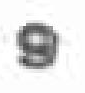9
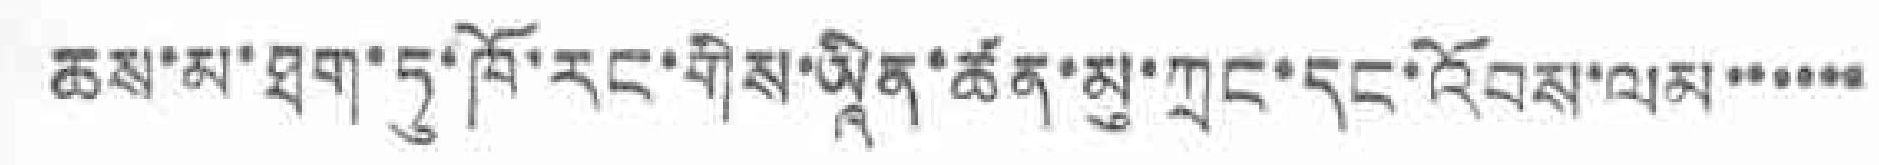ཆས་མ་ཐག་ཏུ་ཁོ་རང་གིས་ཡཱིན་ཚན་མུ་ཀྲང་དང་འོབས་ལམ་་་་་་་
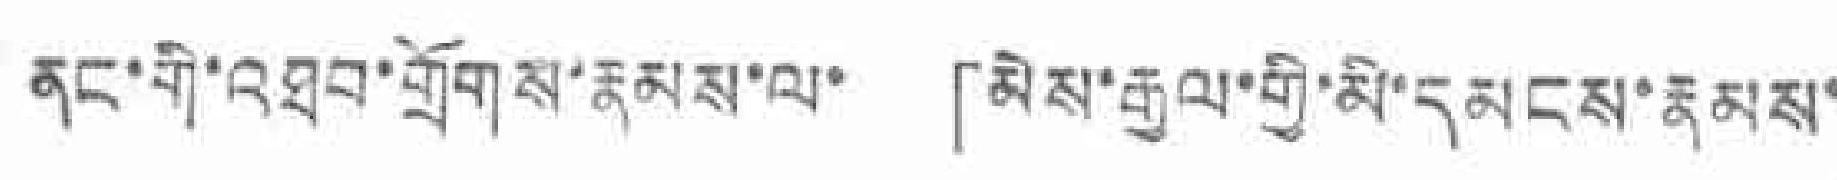ནང་གི་འཐབ་གྲོགས་རྣམས་ལ་ 「མེས་རྒྱལ་གྱི་མི་དམངས་རྣམས་
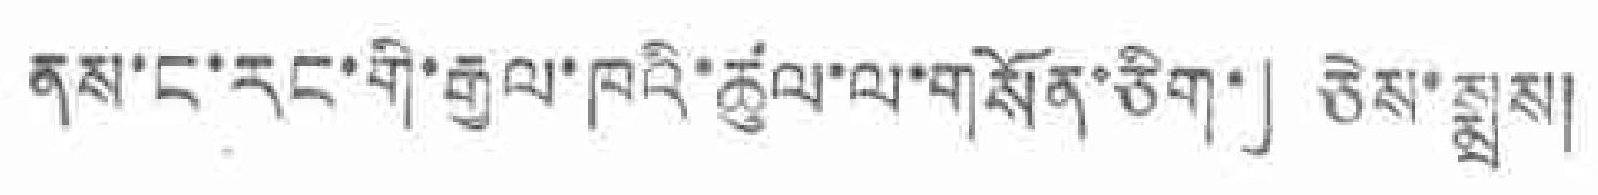ནས་ང་རང་གི་རྒྱལ་ཁའི་ཚུལ་ལ་གསོན་ཅིག་」ཅེས་སྨྲས།
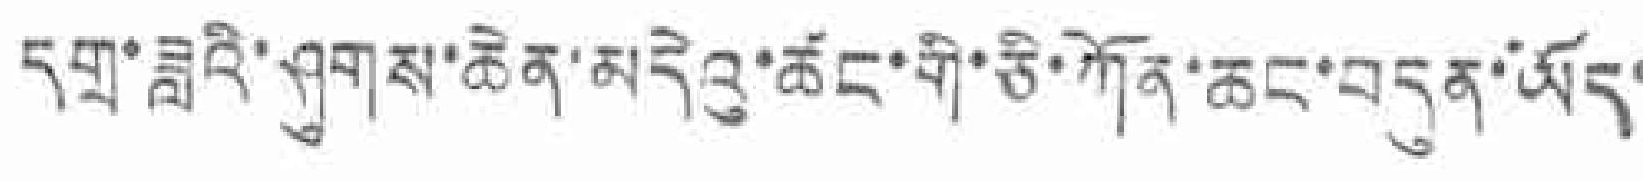དགྲ་ཟླའི་ཤུགས་ཆེན་མདེའུ་ཚང་གི་ཅི་ཀོན་ཆང་བདུན་ཡོད་
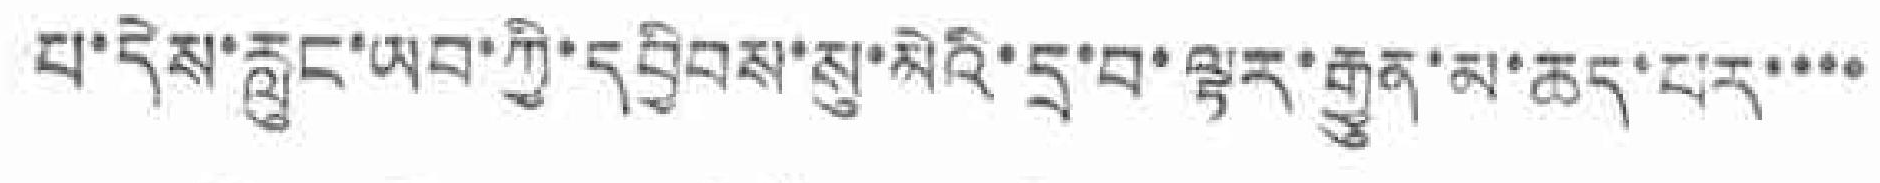པ་དེས་རླུང་ཡབ་ཀྱི་དབྱིབས་སུ་མེའི་དྲ་བ་ལྟར་རྒྱུན་མ་ཆད་པར་་་་
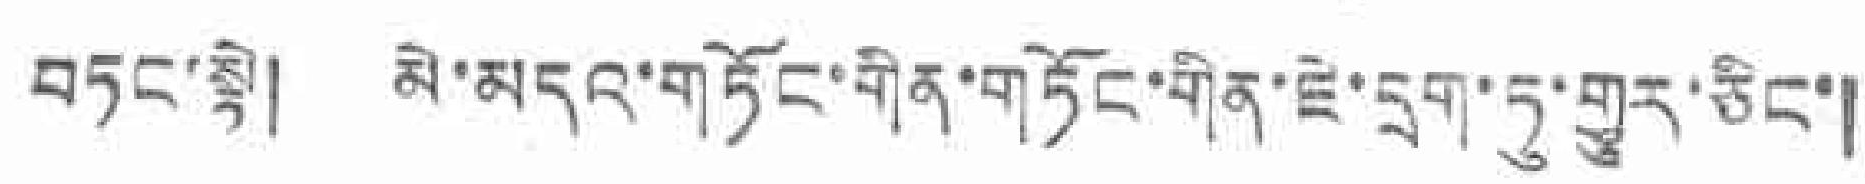བཏང་སྟེ། མེ་མདའ་གཏོང་གིན་གཏོང་གིན་ཇེ་དྲག་ཏུ་གྱུར་ཅིང་།
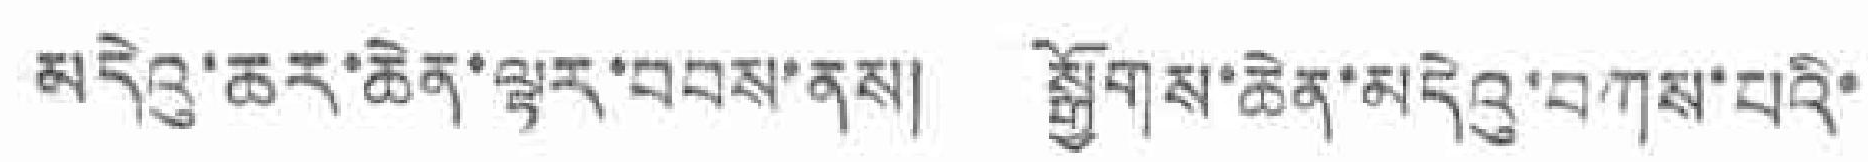མདེའུ་ཆར་ཆེན་ལྟར་བབས་ནས། སྒྱོགས་ཆེན་མདེའུ་བཀས་པའི་
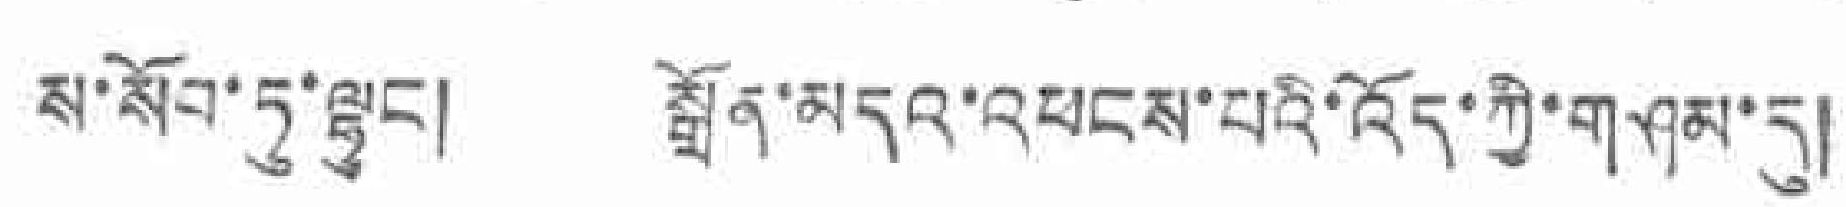ས་སོབ་ཏུ་ལྷུང་། སྒྲོན་མདའ་འཕངས་པའི་འོད་ཀྱི་གཤམ་དུ།
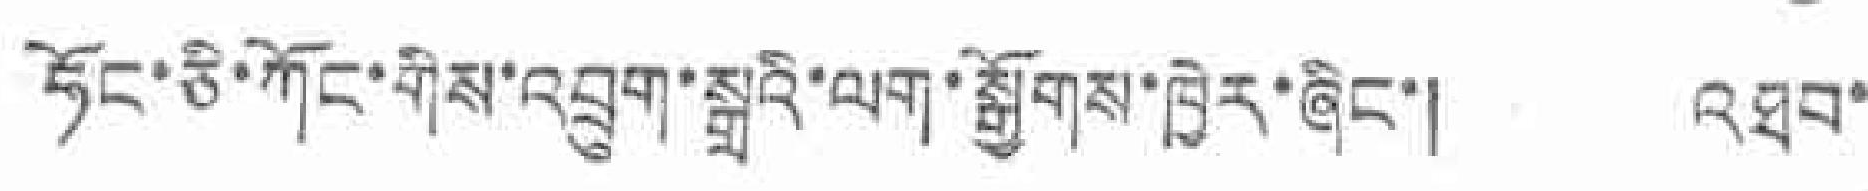ཧོང་ཅི་ཀོང་གིས་འབྲུག་སྒྲའི་ལག་སྒྱོགས་ཁྱེར་ཞིང་། འཐབ་
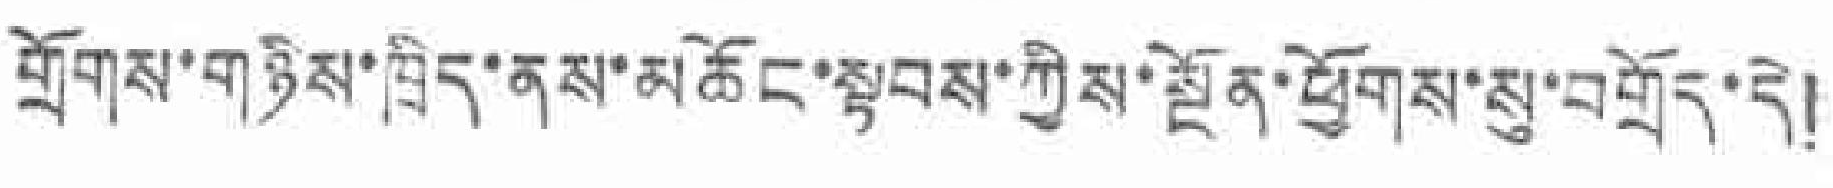གྲོགས་གཉིས་ཁྲིད་ནས་མཆོང་སྟབས་ཀྱིས་སྔོན་ཕྱོགས་སུ་བགྲོད་དེ།
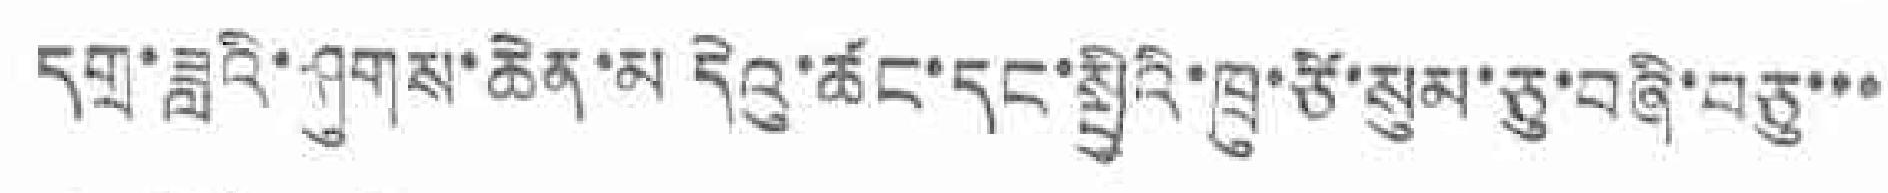དགྲ་ཟླའི་ཤུགས་ཆེན་མ་དེའུ་ཆང་དང་སྤྱིའི་ཁྲུ་ཙེ་སུམ་ཅུ་བཞི་བཅུ་་་་
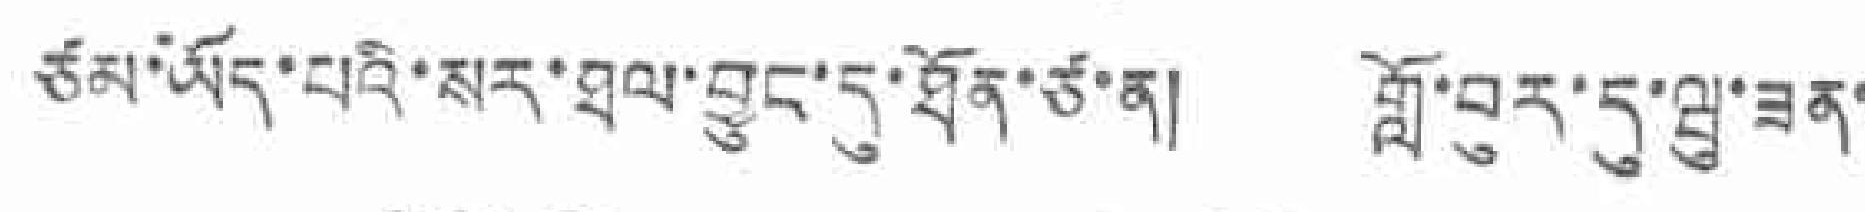ཙམ་ཡོད་པའི་སར་ཐལ་བྱུང་དུ་ཐོན་ཙ་ན། གློ་བུར་དུ་ཝུ་ཟན་
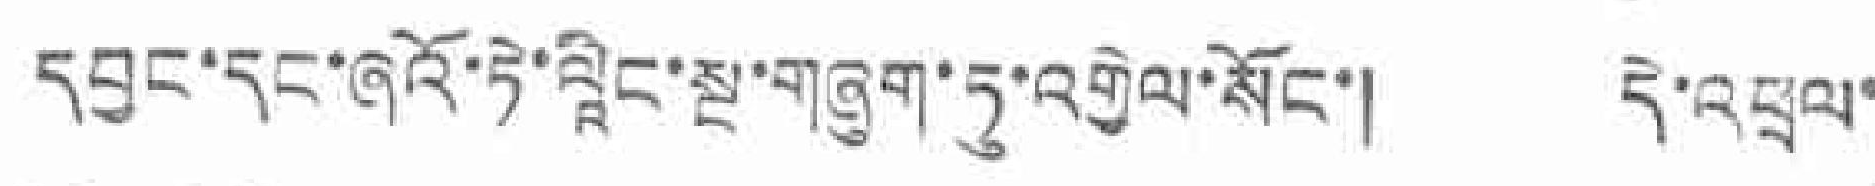དབྱང་དང་ཞའོ་ཏེ་ལཱིང་སྔ་གཞུག་ཏུ་འགྱེལ་སོང་། དེ་འཕྲལ་
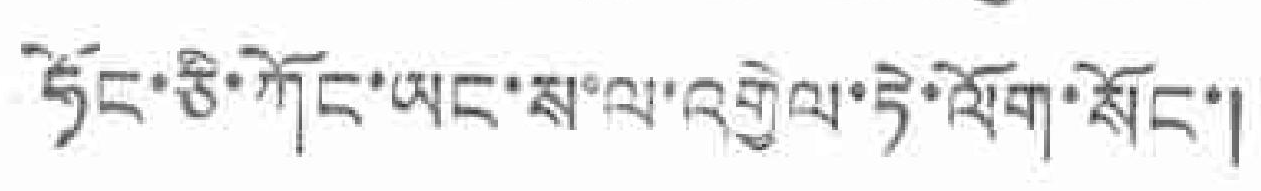ཧོང་ཅི་ཀོང་ཡང་ས་ལ་འགྱེལ་ཏེ་ལོག་སོང་།
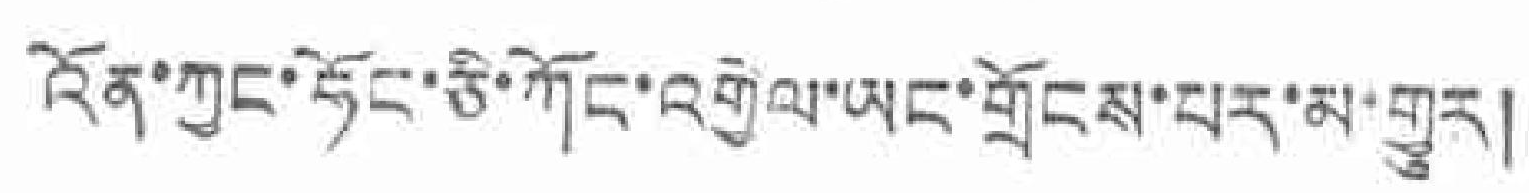འོན་ཀྱང་ཧོང་ཅི་ཀོང་འགྱེལ་ཡང་གྲོངས་པར་མ་གྱུར།
